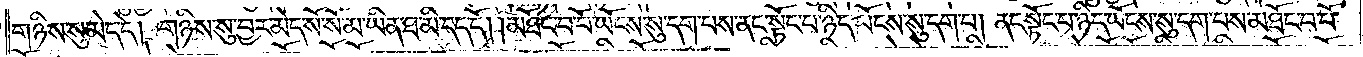གཉིས་སུ་མེད་དེ། གཉིས་སུ་བྱར་མེད་སོ་སོ་མ་ཡིན་ཐ་མི་དད་དོ། །མཐོང་བ་པོ་ཡོངས་སུ་དག་པས་ནང་སྟོང་པ་ཉིད་ཡོངས་སུ་དག་པ། ནང་སྟོང་པ་ཉིད་ཡོངས་སུ་དག་པས་མཐོང་བ་པོ་
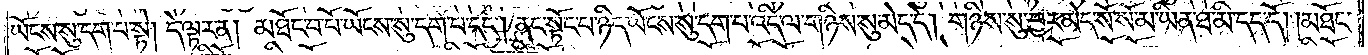ཡོངས་སུ་དག་པ་སྟེ། དེ་ལྟར་ན། མཐོང་བ་པོ་ཡོངས་སུ་དག་པ་དང༌། ནང་སྟོང་པ་ཉིད་ཡོངས་སུ་དག་པ་འདི་ལ་གཉིས་སུ་མེད་དེ། གཉིས་སུ་བྱར་མེད་སོ་སོ་མ་ཡིན་ཐ་མི་དད་དོ། །མཐོང་
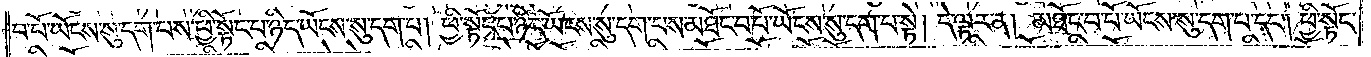བ་པོ་ཡོངས་སུ་དག་པས་ཕྱི་སྟོང་པ་ཉིད་ཡོངས་སུ་དག་པ། ཕྱི་སྟོང་པ་ཉིད་ཡོངས་སུ་དག་པས་མཐོང་བ་པོ་ཡོངས་སུ་དག་པ་སྟེ། དེ་ལྟར་ན། མཐོང་བ་པོ་ཡོངས་སུ་དག་པ་དང༌། ཕྱི་སྟོང་
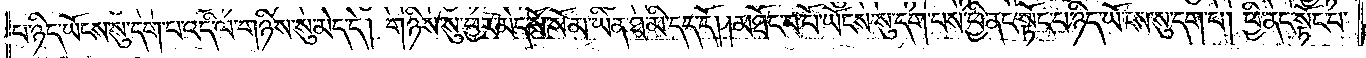པ་ཉིད་ཡོངས་སུ་དག་པ་འདི་ལ་གཉིས་སུ་མེད་དེ། གཉིས་སུ་བྱར་མེད་སོ་སོ་མ་ཡིན་ཐ་མི་དད་དོ། །མཐོང་བ་པོ་ཡོངས་སུ་དག་པས་ཕྱི་ནང་སྟོང་པ་ཉིད་ཡོངས་སུ་དག་པ། ཕྱི་ནང་སྟོང་པ་
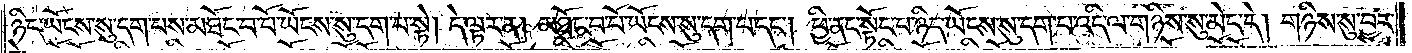ཉིད་ཡོངས་སུ་དག་པས་མཐོང་བ་པོ་ཡོངས་སུ་དག་པ་སྟེ། དེ་ལྟར་ན། མཐོང་བ་པོ་ཡོངས་སུ་དག་པ་དང༌། ཕྱི་ནང་སྟོང་པ་ཉིད་ཡོངས་སུ་དག་པ་འདི་ལ་གཉིས་སུ་མེད་དེ། གཉིས་སུ་བྱར་
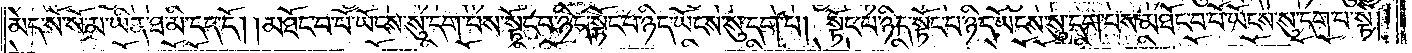མེད་སོ་སོ་མ་ཡིན་ཐ་མི་དད་དོ། །མཐོང་བ་པོ་ཡོང་སུ་དག་པས་སྟོང་པ་ཉིད་སྟོང་པ་ཉིད་ཡོངས་སུ་དག་པ། སྟོང་པ་ཉིད་སྟོང་པ་ཉིད་ཡོངས་སུ་དག་པས་མཐོང་བ་པོ་ཡོངས་སུ་དག་པ་སྟེ།
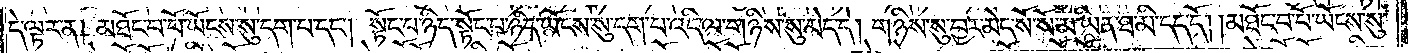དེ་ལྟར་ན། མཐོང་བ་པོ་ཡོངས་སུ་དག་པ་དང༌། སྟོང་པ་ཉིད་སྟོང་པ་ཉིད་ཡོངས་སུ་དག་པ་འདི་ལ་གཉིས་སུ་མེད་དེ། གཉིས་སུ་བྱར་མེད་སོ་སོ་མ་ཡིན་ཐ་མི་དད་དོ། །མཐོང་བ་པོ་ཡོངས་སུ་
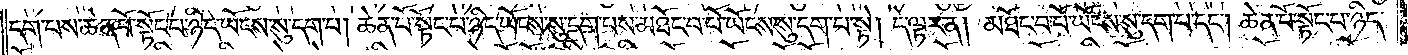དག་པས་ཆེན་པོ་སྟོང་པ་ཉིད་ཡོངས་སུ་དག་པ། ཆེན་པོ་སྟོང་པ་ཉིད་ཡོངས་སུ་དག་པས་མཐོང་བ་པོ་ཡོངས་སུ་དག་པ་སྟེ། དེ་ལྟར་ན། མཐོང་བ་པོ་ཡོངས་སུ་དག་པ་དང༌། ཆེན་པོ་སྟོང་པ་ཉིད་
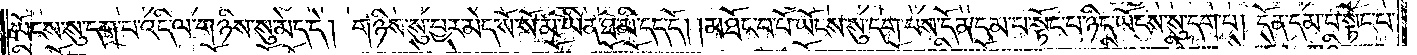ཡོངས་སུ་དག་པ་འདི་ལ་གཉིས་སུ་མེད་དེ། གཉིས་སུ་བྱར་མེད་སོ་སོ་མ་ཡིན་ཐ་མི་དད་དོ། མཐོང་བ་པོ་ཡོངས་སུ་དག་པས་དོན་དམ་པ་སྟོང་པ་ཉིད་ཡོངས་སུ་དག་པ། དོན་དམ་པ་སྟོང་པ་
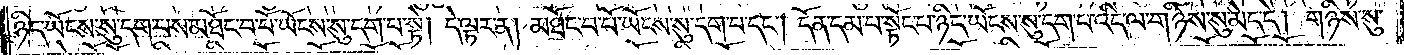ཉིད་ཡོངས་སུ་དག་པས་མཐོང་བ་པོ་ཡོངས་སུ་དག་པ་སྟེ། དེ་ལྟར་ན། མཐོང་བ་པོ་ཡོངས་སུ་དག་པ་དང༌། དོན་དམ་པ་སྟོང་པ་ཉིད་ཡོངས་སུ་དག་པ་འདི་ལ་གཉིས་སུ་མེད་དེ། གཉིས་སུ་
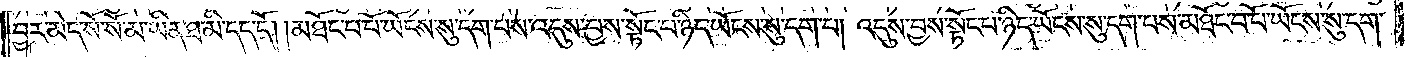བྱར་མེད་སོ་སོ་མ་ཡིན་ཐ་མི་དད་དོ། །མཐོང་བ་པོ་ཡོངས་སུ་དག་པས་འདུས་བྱས་སྟོང་པ་ཉིད་ཡོངས་སུ་དག་པ། འདུས་བྱས་སྟོང་པ་ཉིད་ཡོངས་སུ་དག་པས་མཐོང་བ་པོ་ཡོངས་སུ་དག་
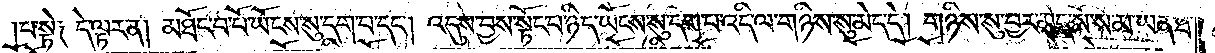པ་སྟེ༑ དེ་ལྟར་ན། མཐོང་བ་པོ་ཡོངས་སུ་དག་པ་དང༌། འདུས་བྱས་སྟོང་པ་ཉིད་ཡོངས་སུ་དག་པ་འདི་ལ་གཉིས་སུ་མེད་དེ། གཉིས་སུ་བྱར་མེད་སོ་སོ་མ་ཡིན་ཐ་
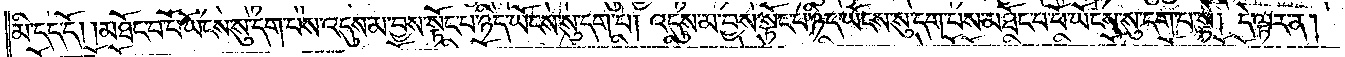མི་དད་དོ། །མཐོང་བ་པོ་ཡོངས་སུ་དག་པས་འདུས་མ་བྱས་སྟོང་པ་ཉིད་ཡོངས་སུ་དག་པ། འདུས་མ་བྱས་སྟོང་པ་ཉིད་ཡོངས་སུ་དག་པས་མཐོང་བ་པོ་ཡོངས་སུ་དག་པ་སྟེ། དེ་ལྟར་ན།
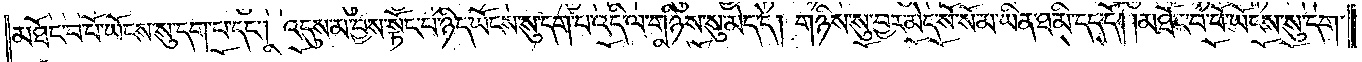མཐོང་བ་པོ་ཡོངས་སུ་དག་པ་དང༌། འདུས་མ་བྱས་སྟོང་པ་ཉིད་ཡོངས་སུ་དག་པ་འདི་ལ་གཉིས་སུ་མེད་དེ། གཉིས་སུ་བྱར་མེད་སོ་སོ་མ་ཡིན་ཐ་མི་དད་དོ། །མཐོང་བ་པོ་ཡོངས་སུ་དག་
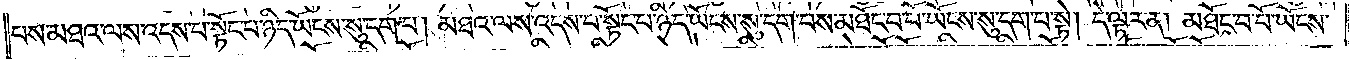པས་མཐའ་ལས་འདས་པ་སྟོང་པ་ཉིད་ཡོངས་སུ་དག་པ། མཐའ་ལས་འདས་པ་སྟོང་པ་ཉིད་ཡོངས་སུ་དག་པས་མཐོང་བ་པོ་ཡོངས་སུ་དག་པ་སྟེ། དེ་ལྟར་ན། མཐོང་བ་པོ་ཡོངས་
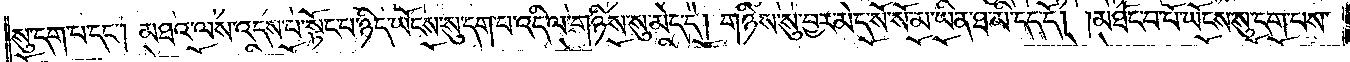སུ་དག་པ་དང༌། མཐའ་ལས་འདས་པ་སྟོང་པ་ཉིད་ཡོངས་སུ་དག་པ་འདི་ལ་གཉིས་སུ་མེད་དེ། གཉིས་སུ་བྱར་མེད་སོ་སོ་མ་ཡིན་ཐ་མི་དད་དོ། །མཐོང་བ་པོ་ཡོངས་སུ་དག་པས་
